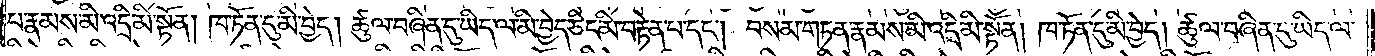པ་རྣམས་མི་འདྲི་མི་སྟོན། ཁ་ཏོན་དུ་མི་བྱེད། ཚུལ་བཞིན་དུ་ཡིད་ལ་མི་བྱེད་ཅིང་མི་བརྟེན་པ་དང༌། བསམ་གཏན་རྣམས་མི་འདྲི་མི་སྟོན། ཁ་ཏོན་དུ་མི་བྱེད། ཚུལ་བཞིན་དུ་ཡིད་ལ་
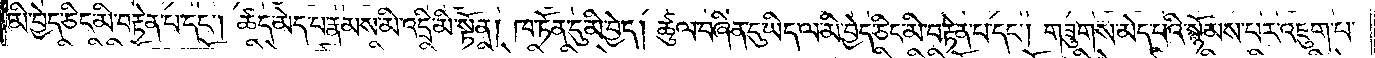མི་བྱེད་ཅིང་མི་བརྟེན་པ་དང༌། ཚད་མེད་པ་རྣམས་མི་འདྲི་མི་སྟོན། ཁ་ཏོན་དུ་མི་བྱེད། ཚུལ་བཞིན་དུ་ཡིད་ལ་མི་བྱེད་ཅིང་མི་བརྟེན་པ་དང༌། གཟུགས་མེད་པའི་སྙོམས་པར་འཇུག་པ་
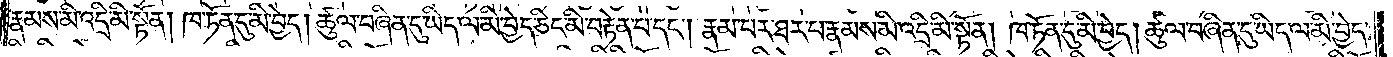རྣམས་མི་འདྲི་མི་སྟོན། ཁ་ཏོན་དུ་མི་བྱེད། ཚུལ་བཞིན་དུ་ཡིད་ལ་མི་བྱེད་ཅིང་མི་བརྟེན་པ་དང༌། རྣམ་པར་ཐར་པ་རྣམས་མི་འདྲི་མི་སྟོན། ཁ་ཏོན་དུ་མི་བྱེད། ཚུལ་བཞིན་དུ་ཡིད་ལ་མི་བྱེད་
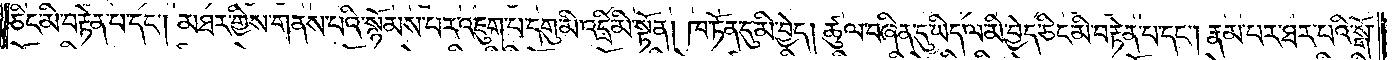ཅིང་མི་བརྟེན་པ་དང༌། མཐར་གྱིས་གནས་པའི་སྙོམས་པར་འཇུག་པ་དགུ་མི་འདྲི་མི་སྟོན། ཁ་ཏོན་དུ་མི་བྱེད། ཚུལ་བཞིན་དུ་ཡིད་ལ་མི་བྱེད་ཅིང་མི་བརྟེན་པ་དང༌། རྣམ་པར་ཐར་པའི་སྒོ་
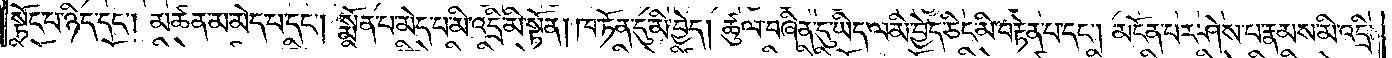སྟོང་པ་ཉིད་དང༌། མཚན་མ་མེད་པ་དང༌། སྨོན་པ་མེད་པ་མི་འདྲི་མི་སྟོན། ཁ་ཏོན་དུ་མི་བྱེད། ཚུལ་བཞིན་དུ་ཡིད་ལ་མི་བྱེད་ཅིང་མི་བརྟེན་པ་དང༌། མངོན་པར་ཤེས་པ་རྣམས་མི་འདྲི་
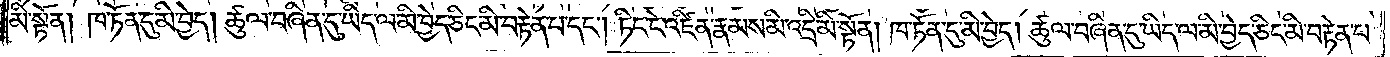མི་སྟོན། ཁ་ཏོན་དུ་མི་བྱེད། ཚུལ་བཞིན་དུ་ཡིད་ལ་མི་བྱེད་ཅིང་མི་བརྟེན་པ་དང༌། ཏིང་ངེ་འཛིན་རྣམས་མི་འདྲི་མི་སྟོན། ཁ་ཏོན་དུ་མི་བྱེད། ཚུལ་བཞིན་དུ་ཡིད་ལ་མི་བྱེད་ཅིང་མི་བརྟེན་པ་
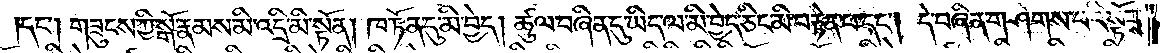དང༌། གཟུངས་ཀྱི་སྒོ་རྣམས་མི་འདྲི་མི་སྟོན། ཁ་ཏོན་དུ་མི་བྱེད། ཚུལ་བཞིན་དུ་ཡིད་ལ་མི་བྱེད་ཅིང་མི་བརྟེན་པ་དང༌། དེ་བཞིན་གཤེགས་པའི་སྟོབས་
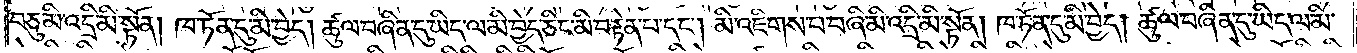བཅུ་མི་འདྲི་མི་སྟོན། ཁ་ཏོན་དུ་མི་བྱེད། ཚུལ་བཞིན་དུ་ཡིད་ལ་མི་བྱེད་ཅིང་མི་བརྟེན་པ་དང༌། མི་འཇིགས་པ་བཞི་མི་འདྲི་མི་སྟོན། ཁ་ཏོན་དུ་མི་བྱེད། ཚུལ་བཞིན་དུ་ཡིད་ལ་མི་
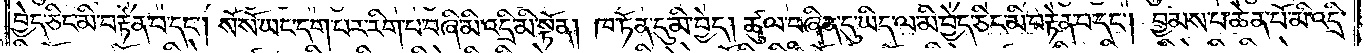བྱེད་ཅིང་མི་བརྟེན་པ་དང༌། སོ་སོ་ཡང་དག་པར་རིག་པ་བཞི་མི་འདྲི་མི་སྟོན། ཁ་ཏོན་དུ་མི་བྱེད། ཚུལ་བཞིན་དུ་ཡིད་ལ་མི་བྱེད་ཅིང་མི་བརྟེན་པ་དང༌། བྱམས་པ་ཆེན་པོ་མི་འདྲི་
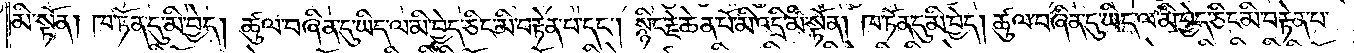མི་སྟོན། ཁ་ཏོན་དུ་མི་བྱེད། ཚུལ་བཞིན་དུ་ཡིད་ལ་མི་བྱེད་ཅིང་མི་བརྟེན་པ་དང༌། སྙིང་རྗེ་ཆེན་པོ་མི་འདྲི་མི་སྟོན། ཁ་ཏོན་དུ་མི་བྱེད། ཚུལ་བཞིན་དུ་ཡིད་ལ་མི་བྱེད་ཅིང་མི་བརྟེན་པ་
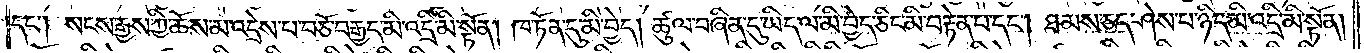དང༌། སངས་རྒྱས་ཀྱི་ཆོས་མ་འདྲེས་པ་བཅོ་བརྒྱད་མི་འདྲི་མི་སྟོན། ཁ་ཏོན་དུ་མི་བྱེད། ཚུལ་བཞིན་དུ་ཡིད་ལ་མི་བྱེད་ཅིང་མི་བརྟེན་པ་དང༌། ཐམས་ཅད་ཤེས་པ་ཉིད་མི་འདྲི་མི་སྟོན།
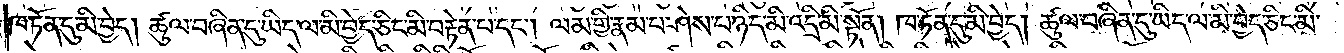ཁ་ཏོན་དུ་མི་བྱེད། ཚུལ་བཞིན་དུ་ཡིད་ལ་མི་བྱེད་ཅིང་མི་བརྟེན་པ་དང༌། ལམ་གྱི་རྣམ་པ་ཤེས་པ་ཉིད་མི་འདྲི་མི་སྟོན། ཁ་ཏོན་དུ་མི་བྱེད། ཚུལ་བཞིན་དུ་ཡིད་ལ་མི་བྱེད་ཅིང་མི་
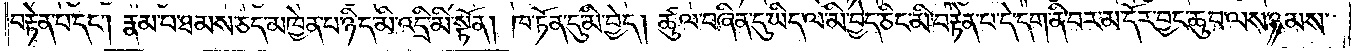བརྟེན་པ་དང༌། རྣམ་པ་ཐམས་ཅད་མཁྱེན་པ་ཉིད་མི་འདྲི་མི་སྟོན། ཁ་ཏོན་དུ་མི་བྱེད། ཚུལ་བཞིན་དུ་ཡིད་ལ་མི་བྱེད་ཅིང་མི་བརྟེན་པ་དེ་དག་ནི་བར་མ་དོར་བྱང་ཆུབ་ལས་ཉམས་
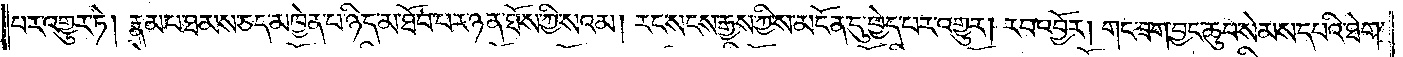པར་འགྱུར་ཏེ། རྣམ་པ་ཐམས་ཅད་མཁྱེན་པ་ཉིད་མ་ཐོབ་པར་ཉན་ཐོས་ཀྱི་སའམ། རང་སངས་རྒྱས་ཀྱི་ས་མངོན་དུ་བྱེད་པར་འགྱུར། རབ་འབྱོར། གང་ཟག་བྱང་ཆུབ་སེམས་དཔའི་ཐེག་
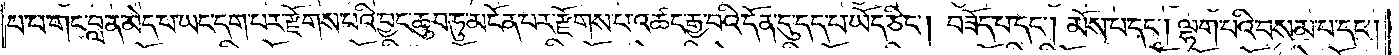པ་པ་གང་བླ་ན་མེད་པ་ཡང་དག་པར་རྫོགས་པའི་བྱང་ཆུབ་ཏུ་མངོན་པར་རྫོགས་པར་འཚང་རྒྱ་བའི་དོན་དུ་དད་པ་ཡོད་ཅིང༌། བཟོད་པ་དང༌། མོས་པ་དང༌། ལྷག་པའི་བསམ་པ་དང༌།
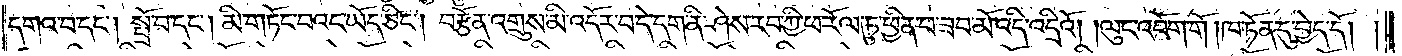དགའ་བ་དང༌། སྤྲོ་བ་དང༌། མི་གཏོང་བའང་ཡོད་ཅིང༌། བརྩོན་འགྲུས་མི་འདོར་བ་དེ་དག་ནི་ཤེས་རབ་ཀྱི་ཕ་རོལ་ཏུ་ཕྱིན་པ་ཟབ་མོ་འདི་འདྲིའོ། །ལུང་འབོག་གོ །ཁ་ཏོན་དུ་བྱེད་དོ། །
